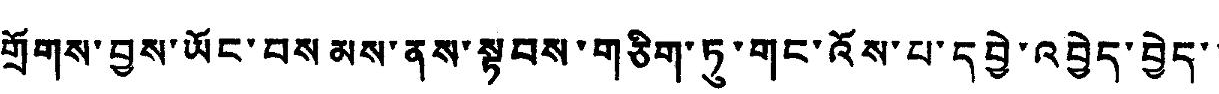གྲོགས་བྱས་ཡོང་བསམས་ནས་སྟབས་གཅིག་ཏུ་གང་འོས་པ་དབྱེ་འབྱེད་བྱེད་
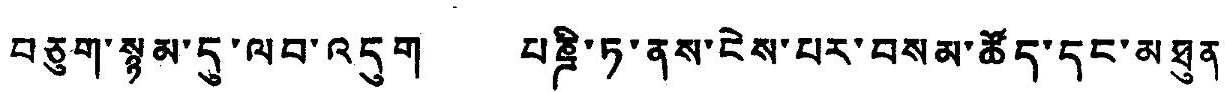བཅུག་སྙམ་དུ་ལབ་འདུག པཎྚི་ཏ་ནས་ངེས་པར་བསམ་ཚོད་དང་མཐུན་
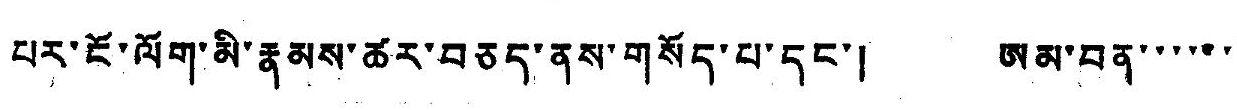པར་ངོ་ལོག་མི་རྣམས་ཚར་བཅད་ནས་གསོད་པ་དང་། ཨམ་བན་་་་་་
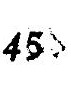45
